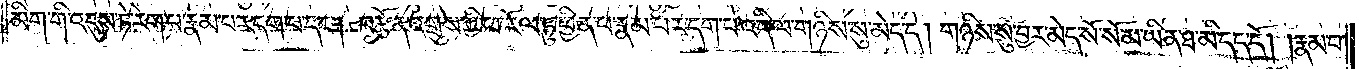མིག་གི་འདུས་ཏེ་རེག་པ་རྣམ་པར་དག་པ་དང༌། བརྩོན་འགྲུས་ཀྱི་ཕ་རོལ་ཏུ་ཕྱིན་པ་རྣམ་པར་དག་པ་འདི་ལ་གཉིས་སུ་མེད་དེ། གཉིས་སུ་བྱར་མེད་སོ་སོ་མ་ཡིན་ཐ་མི་དད་དོ། །རྣམ་པ་
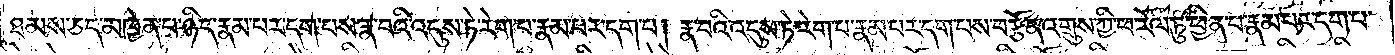ཐམས་ཅད་མཁྱེན་པ་ཉིད་རྣམ་པར་དག་པས་རྣ་བའི་འདུས་ཏེ་རེག་པ་རྣམ་པར་དག་པ། རྣ་བའི་འདུས་ཏེ་རེག་པ་རྣམ་པར་དག་པས་བརྩོན་འགྲུས་ཀྱི་ཕ་རོལ་ཏུ་ཕྱིན་པ་རྣམ་པར་དག་པ་
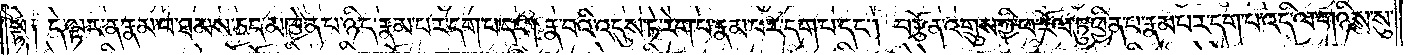སྟེ༑ དེ་ལྟར་ན་རྣམ་པ་ཐམས་ཅད་མཁྱེན་པ་ཉིད་རྣམ་པར་དག་པ་དང༌། རྣ་བའི་འདུས་ཏེ་རེག་པ་རྣམ་པར་དག་པ་དང༌། བརྩོན་འགྲུས་ཀྱི་ཕ་རོལ་ཏུ་ཕྱིན་པ་རྣམ་པར་དག་པ་འདི་ལ་གཉིས་སུ་
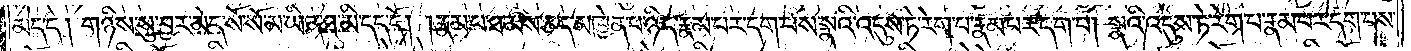མེད་དེ། གཉིས་སུ་བྱར་མེད་སོ་སོ་མ་ཡིན་ཐ་མི་དད་དོ། །རྣམ་པ་ཐམས་ཅད་མཁྱེན་པ་ཉིད་རྣམ་པར་དག་པས་སྣའི་འདུས་ཏེ་རེག་པ་རྣམ་པར་དག་པ། སྣའི་འདུས་ཏེ་རེག་པ་རྣམ་པར་དག་པས་
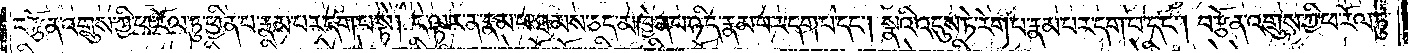བརྩོན་འགྲུས་ཀྱི་ཕ་རོལ་ཏུ་ཕྱིན་པ་རྣམ་པར་དག་པ་སྟེ། དེ་ལྟར་ན་རྣམ་པ་ཐམས་ཅད་མཁྱེན་པ་ཉིད་རྣམ་པར་དག་པ་དང༌། སྣའི་འདུས་ཏེ་རེག་པ་རྣམ་པར་དག་པ་དང༌། བརྩོན་འགྲུས་ཀྱི་ཕ་རོལ་ཏུ་
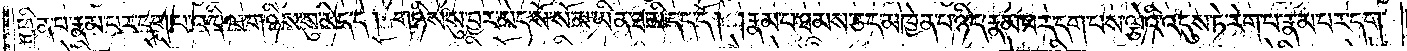ཕྱིན་པ་རྣམ་པར་དག་པ་འདི་ལ་གཉིས་སུ་མེད་དེ། གཉིས་སུ་བྱར་མེད་སོ་སོ་མ་ཡིན་ཐ་མི་དད་དོ། །རྣམ་པ་ཐམས་ཅད་མཁྱེན་པ་ཉིད་རྣམ་པར་དག་པས་ལྕེའི་འདུས་ཏེ་རེག་པ་རྣམ་པར་དག་
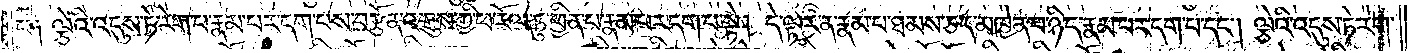པ༑ ལྕེའི་འདུས་ཏེ་རེག་པ་རྣམ་པར་དག་པས་བརྩོན་འགྲུས་ཀྱི་ཕ་རོལ་ཏུ་ཕྱིན་པ་རྣམ་པར་དག་པ་སྟེ། དེ་ལྟར་ན་རྣམ་པ་ཐམས་ཅད་མཁྱེན་པ་ཉིད་རྣམ་པར་དག་པ་དང༌། ལྕེའི་འདུས་ཏེ་རེག་
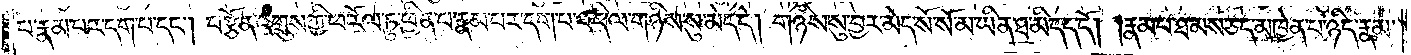པ་རྣམ་པར་དག་པ་དང༌། བརྩོན་འགྲུས་ཀྱི་ཕ་རོལ་ཏུ་ཕྱིན་པ་རྣམ་པར་དག་པ་འདི་ལ་གཉིས་སུ་མེད་དེ། གཉིས་སུ་བྱར་མེད་སོ་སོ་མ་ཡིན་ཐ་མི་དད་དོ། །རྣམ་པ་ཐམས་ཅད་མཁྱེན་པ་ཉིད་རྣམ་
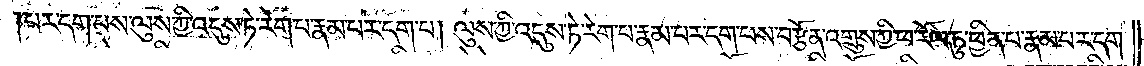པར་དག་པས་ལུས་ཀྱི་འདུས་ཏེ་རེག་པ་རྣམ་པར་དག་པ། ལུས་ཀྱི་འདུས་ཏེ་རེག་པ་རྣམ་པར་དག་པས་བརྩོན་འགྲུས་ཀྱི་ཕ་རོལ་ཏུ་ཕྱིན་པ་རྣམ་པར་དག་
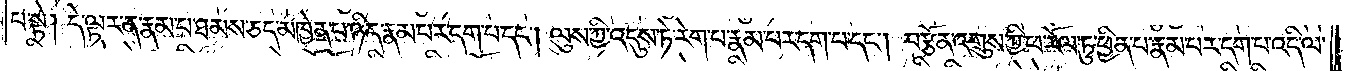པ་སྟེ། དེ་ལྟར་ན་རྣམ་པ་ཐམས་ཅད་མཁྱེན་པ་ཉིད་རྣམ་པར་དག་པ་དང༌། ལུས་ཀྱི་འདུས་ཏེ་རེག་པ་རྣམ་པར་དག་པ་དང༌། བརྩོན་འགྲུས་ཀྱི་ཕ་རོལ་ཏུ་ཕྱིན་པ་རྣམ་པར་དག་པ་འདི་ལ་
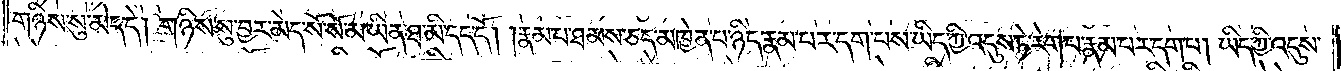གཉིས་སུ་མེད་དེ། གཉིས་སུ་བྱར་མེད་སོ་སོ་མ་ཡིན་ཐ་མི་དད་དོ། །རྣམ་པ་ཐམས་ཅད་མཁྱེན་པ་ཉིད་རྣམ་པར་དག་པས་ཡིད་ཀྱི་འདུས་ཏེ་རེག་པ་རྣམ་པར་དག་པ། ཡིད་ཀྱི་འདུས་
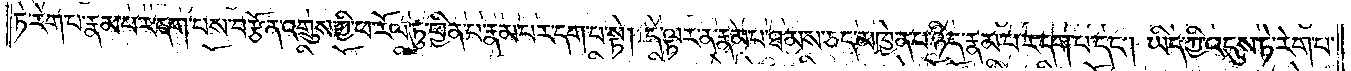ཏེ་རེག་པ་རྣམ་པར་དག་པས་བརྩོན་འགྲུས་ཀྱི་ཕ་རོལ་ཏུ་ཕྱིན་པ་རྣམ་པར་དག་པ་སྟེ། དེ་ལྟར་ན་རྣམ་པ་ཐམས་ཅད་མཁྱེན་པ་ཉིད་རྣམ་པར་དག་པ་དང༌། ཡིད་ཀྱི་འདུས་ཏེ་རེག་པ་
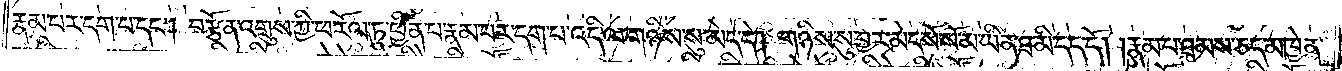རྣམ་པར་དག་པ་དང༌། བརྩོན་འགྲུས་ཀྱི་ཕ་རོལ་ཏུ་ཕྱིན་པ་རྣམ་པར་དག་པ་འདི་ལ་གཉིས་སུ་མེད་དེ། གཉིས་སུ་བྱར་མེད་སོ་སོ་མ་ཡིན་ཐ་མ་དད་དོ། །རྣམ་པ་ཐམས་ཅད་མཁྱེན་
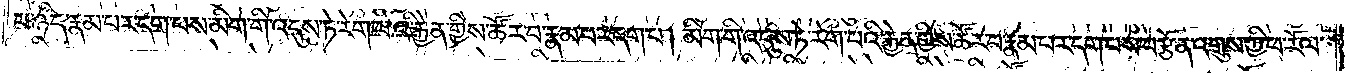པ་ཉིད་རྣམ་པར་དག་པས་མིག་གི་འདུས་ཏེ་རེག་པའི་རྐྱེན་གྱིས་ཚོར་བ་རྣམ་པར་དག་པ། མིག་གི་འདུས་ཏེ་རེག་པའི་རྐྱེན་གྱིས་ཚོར་བ་རྣམ་པར་དག་པས་བརྩོན་འགྲུས་ཀྱི་ཕ་རོལ་
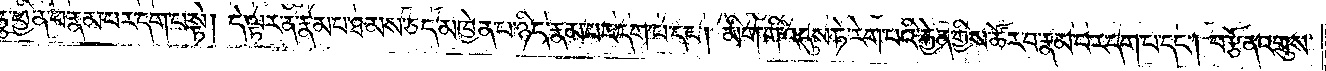ཏུ་ཕྱིན་པ་རྣམ་པར་དག་པ་སྟེ། དེ་ལྟར་ན་རྣམ་པ་ཐམས་ཅད་མཁྱེན་པ་ཉིད་རྣམ་པར་དག་པ་དང༌། མིག་གི་འདུས་ཏེ་རེག་པའི་རྐྱེན་གྱིས་ཚོར་བ་རྣམ་པར་དག་པ་དང༌། བརྩོན་འགྲུས་
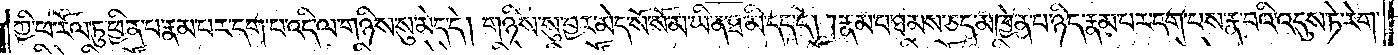ཀྱི་ཕ་རོལ་ཏུ་ཕྱིན་པ་རྣམ་པར་དག་པ་འདི་ལ་གཉིས་སུ་མེད་དེ། གཉིས་སུ་བྱར་མེད་སོ་སོ་མ་ཡིན་ཐ་མི་དད་དོ། །རྣམ་པ་ཐམས་ཅད་མཁྱེན་པ་ཉིད་རྣམ་པར་དག་པས་རྣ་བའི་འདུས་ཏེ་རེག་
